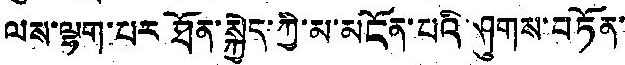ལས་ལྷག་པར ཐོན་སྐྱེད་ཀྱི་མ་མངོན་པའི་ཤུགས་བཏོན་
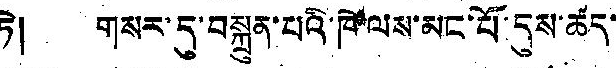ཏེ། གསར་དུ་བསྐྲུན་པའི་ཁེ་ལས་མང་པོ་དུས་ཚད་
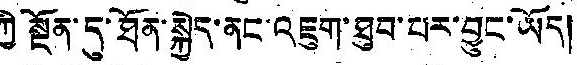ཀྱི སྔོན་དུ་ཐོན་སྐྱེད་ནང་འཇུག་ཐུབ་པར་བྱུང་ཡོད།
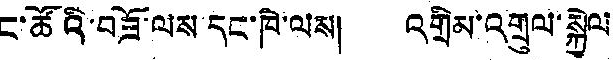ང་ཚོའི་བཟོ་ལས་དང་ཁེ་ལས། འགྲིམ་འགྲུལ་སྐྱེལ་
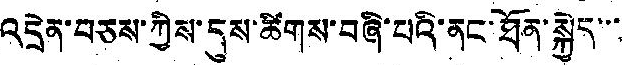འདྲེན་བཅས་ཀྱིས་དུས་ཚིགས་བཞི་པའི་ནང་ཐོན་སྐྱེད་་་
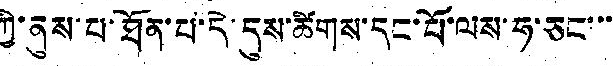ཀྱི་ནུས་པ་ཐོན་པ་དེ་དུས་ཚིགས་དང་པོ་ལས་ཧ་ཅང་་་
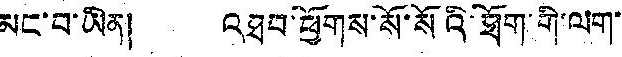མང་བ་ཡིན། འཐབ་ཕྱོགས་སོ་སོའི་ཐོག་གི་ལག་
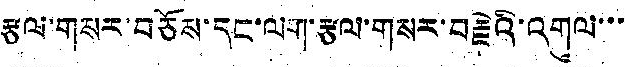རྩལ་གསར་བཅོས་དང་ལག་རྩལ་གསར་བརྗེའི་འགུལ་་་
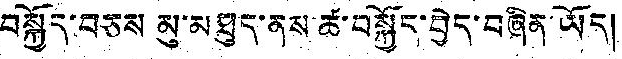བསྐྱོད་བཅས མུ་མཐུད་ནས་ཚ་བསྐྱོད་བྱེད་བཞིན་ཡོད།
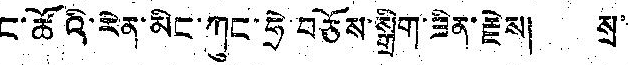ང་ཚོའི་རེན་མིན་ཀུང་ཧྲེ་བཅོས་སྒྲིག་ཟིན་རྗེས། སྲ་
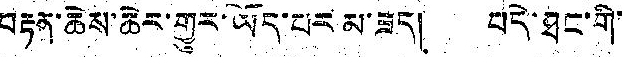བརྟན་ཆེས་ཆེར་གྱུར་ཡོད་པར མ་ཟད། བདེ་ཐང་གི་
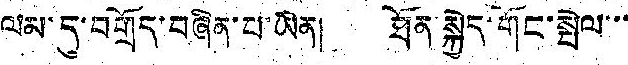ལམ་དུ་བགྲོད་བཞིན་པ་ཡིན། ཐོན སྐྱེད་གོང་སྤེལ་་་
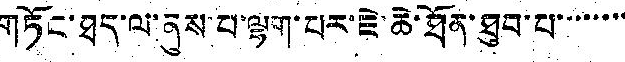གཏོང་ཐད་ལ་ནུས་པ་ལྷག་པར་ཇེ་ཆེ་ཐོན་ཐུབ་པ་་་་་་་་
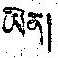ཡིན།
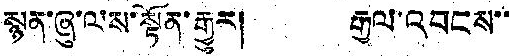སྙན་ཞུ་ལས་སྟོན་རྒྱུར། རྒྱལ་འབངས་་
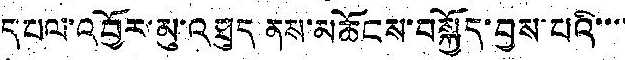དཔལ་འབྱོར་མུ་འཐུད ནས་མཆོངས་སྐྱོད་བྱས་པའི་་་་
